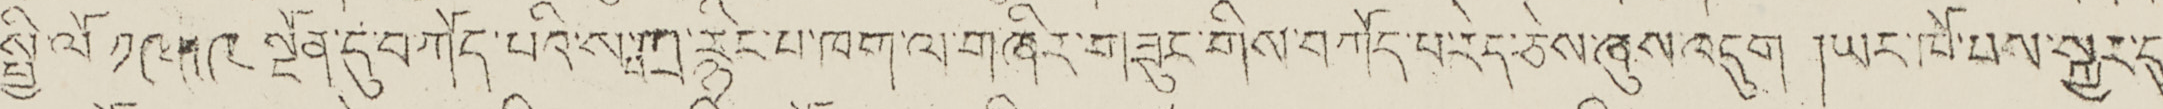སྤྱི་ལོ་ ༡༩༥༩ སྔོན་དུ་བཀོད་པའི་ས་བཀྲ་སྙིང་པ་ཁག་ལ་གཞིར་གཟུང་གིས་བཀོད་པ་རེད་ཅེས་ཞུས་འདུག །ཡང་ཁོ་པས་སྐྱར་དུ་
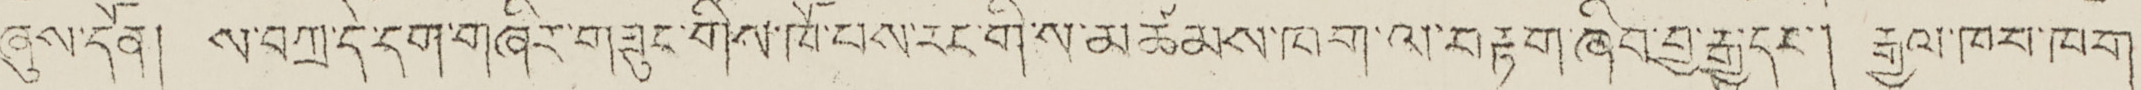ཞུས་དོན། ས་བཀྲ་དེ་དག་གཞིར་གཟུང་གིས་ཁོ་པས་རང་གི་ས་མཚམས་ཁག་ལ་བརྟག་ཞིབ་བྱ་རྒྱུ་དང་། རྒྱལ་ཁབ་ཁག་
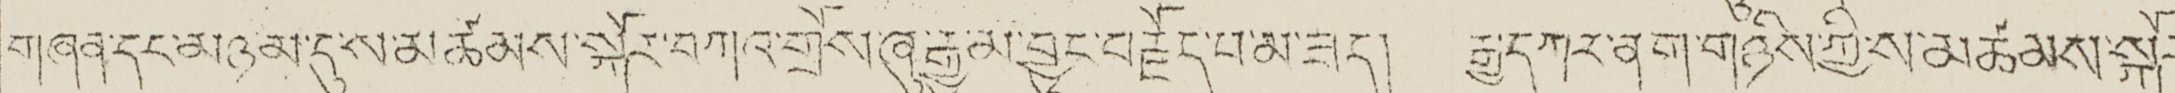གཞན་དང་མཉམ་དུ་ས་མཚམས་སྐོར་བཀའ་གྲོས་ཞུ་རྒྱུ་མ་བྱུང་བརྗོད་པ་མ་ཟད། རྒྱ་དཀར་ནག་གཉིས་ཀྱི་ས་མཚམས་སྐོར་
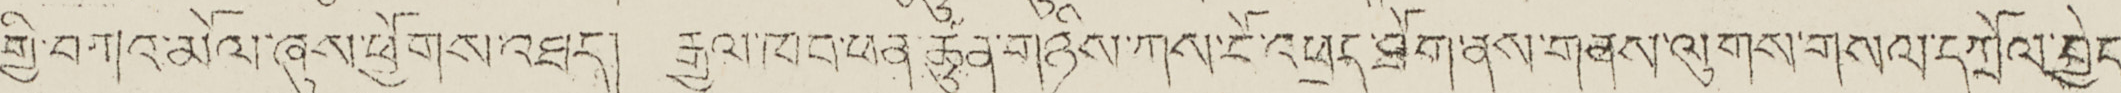གྱི་བཀའ་མོལ་ཞུས་ཕྱོགས་འཐད། རྒྱལ་ཁབ་ཕན་ཚུལ་གཉིས་ཀས་ངོ་འཕྲད་ཐོག་ནས་གནས་ལུགས་གསལ་དཀྲོལ་བྱེད་
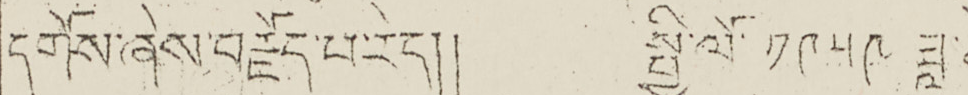དགོས་ཞེས་བརྗོད་པ་རེད།། སྤྱི་ལོ་ ༡༩༥༩ ཟླ་
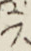༡
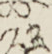༡༢
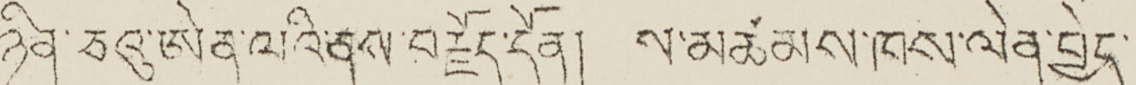ཉིན་ཅའུ་ཨེན་ལའི་ནས་བརྗོད་དོན། ས་མཚམས་ཁས་ལེན་བྱེད་
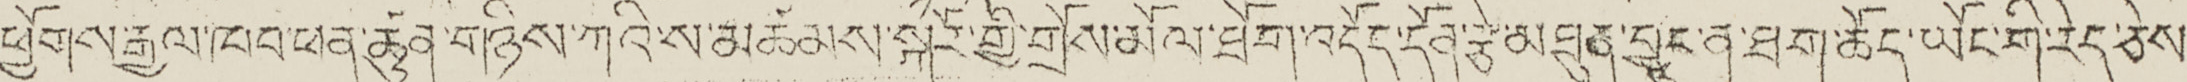ཕྱོགས་རྒྱལ་ཁབ་ཕན་ཚུན་གཉིས་ཀའི་ས་མཚམས་སྐོར་གྱི་གྲོས་མིལ་ཐོག་འདོད་དོན་རྩེ་མཐུན་བྱུང་ན་ཐག་ཆོད་ཡོང་གོ་རེད་ཅེས་
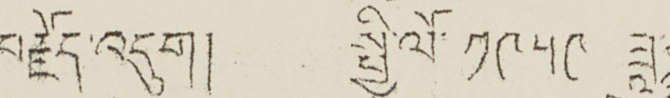བརྗོད་འདུག། སྤྱི་ལོ་ ༡༩༥༩ ཟླ་
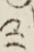༣
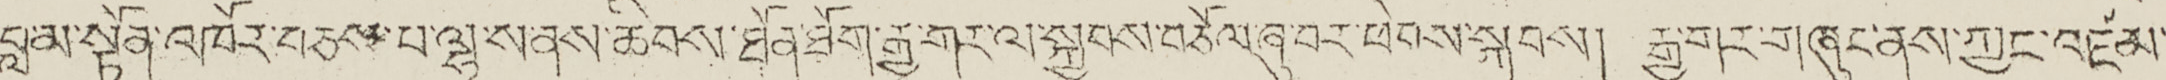བླ་མ་སྟོན་འཁོར་བཅས་ལ་ལྷ་ས་ནས་ཆིབས་ཐོན་ཐོག་རྒྱ་གར་ལ་སྐྱབས་བཅོལ་ཞུ་བར་ཕེབས་སྐབས། རྒྱ་གར་གཞུང་ནས་ཀྱང་འཛམ་
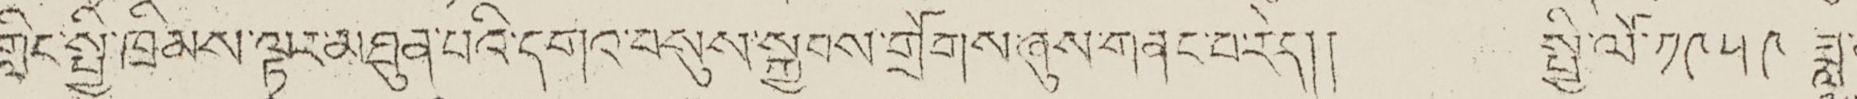གླིང་སྤྱི་ཁྲིམས་ལྟར་མཐུན་པའི་དགའ་བསུས་སྐྱབས་གྲོགས་ཞུས་གནང་བ་རེད།། སྤྱི་ལོ་ ༡༩༥༩ ཟླ་
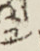༧
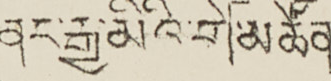ནང་རྒྱ་མའི་གོ་མཚོན
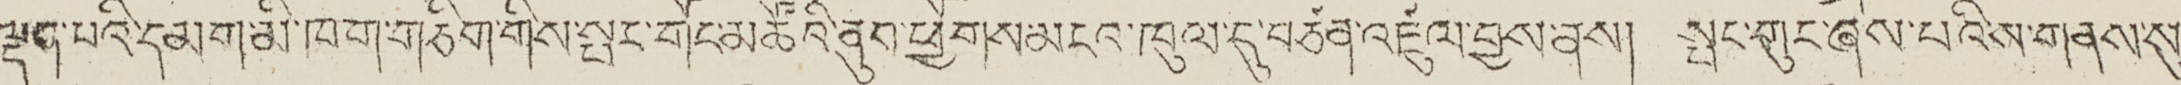ལྡན་པའི་དམག་མི་ཁག་གཅིག་གིས་སྤར་གོང་མཚོའི་ནུབ་ཕྱོགས་མངའ་ཁུལ་དུ་བཙན་འཛུལ་བྱས་ནས། སྤང་གུང་ཞེས་པའི་ས་གནས་སུ་
